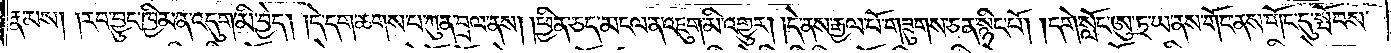རྣམས། །རབ་བྱུང་ཁྱིམ་ན་འདུག་མི་བྱེད། །དེ་དག་ཆགས་པ་ཀུན་བྲལ་ནས། །ཕྱིན་ཅད་མངལ་ན་འཇུག་མི་འགྱུར། །དེ་ནས་རྒྱལ་པོ་གཟུགས་ཅན་སྙིང་པོ། །དགེ་སློང་ཨུ་ཏྲ་ཡ་ནས་གོང་དུ་ནས་གོང་དུ་སྤོབས་
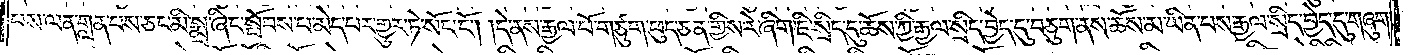པས་ལན་གླན་པས་ཅང་མི་སྨྲ་ཞིང་སྤོབས་པ་མེད་པར་གྱུར་ཏེ་སོང་ངོ༌། །དེ་ནས་རྒྱལ་པོ་གཙུག་ཕུད་ཅན་གྱིས་རེ་ཞིག་ཇི་སྲིད་དུ་ཆོས་ཀྱི་རྒྱལ་སྲིད་བྱེད་དུ་བཅུག་ནས་ཆོས་མ་ཡིན་པས་རྒྱལ་སྲིད་བྱེད་དུ་གཞུག་
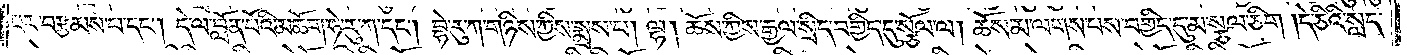པར་བརྩམས་པ་དང༌། དེ་ལ་བློན་པོའི་མཆོག་ཧེ་རུ་ཀ་དང༌། བྷེ་རུ་ཀ་གཉིས་ཀྱིས་སྨྲས་པ། ལྷ། ཆོས་ཀྱིས་རྒྱལ་སྲིད་བགྱིད་དུ་སྩོལ་ལ། ཆོས་མ་ལགས་པས་བགྱིད་དུ་མ་སྩལ་ཅིག །དེ་ཅིའི་སླད་
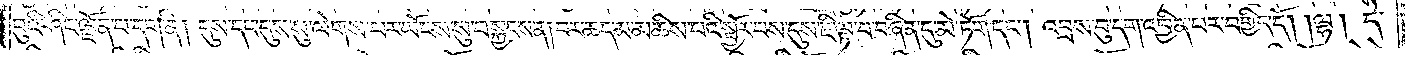བུའི་ཤིང་ལྗོན་པ་དག་ནི། དུས་དང་དུས་སུ་ལེགས་པར་ཡོངས་སུ་བསྐྱངས་ན། བར་ཆད་མ་མཆིས་པའི་སྦྱོར་བས་དུས་ཇི་ལྟ་བ་བཞིན་དུ་མེ་ཏོག་དང༌། འབྲས་བུ་དག་འབྱིན་པར་བགྱིད་དོ། །ལྷ། དེ་
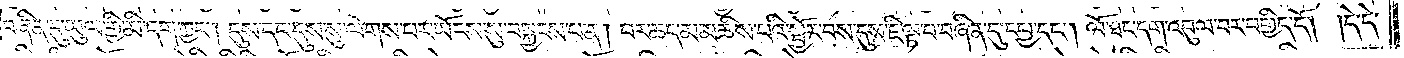བཞིན་དུ་ཡུལ་གྱི་མི་དག་ཀྱང༌། དུས་དང་དུས་སུ་ལེགས་པར་ཡོངས་སུ་བསྐྱངས་པ་ན། བར་ཆད་མ་མཆིས་པའི་སྦྱོར་བས་དུས་ཇི་ལྟ་བ་བཞིན་དུ་དཔྱ་དང༌། ལོ་ཐང་དག་འབུལ་བར་བགྱིད་དོ། །དེ་དེ་
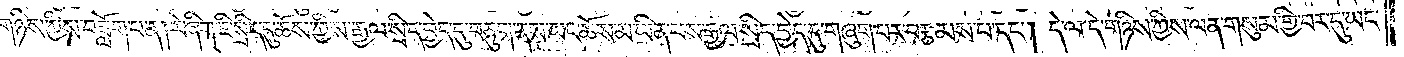གཉིས་ཀྱིས་བཟློག་པ་ན། རེ་ཞིག་ཇི་སྲིད་དུ་ཆོས་ཀྱིས་རྒྱལ་སྲིད་བྱེད་དུ་བཅུག་ནས་ཡང་ཆོས་མ་ཡིན་པས་རྒྱལ་སྲིད་བྱེད་དུ་གཞུག་པར་བརྩམས་པ་དང༌། དེ་ལ་དེ་གཉིས་ཀྱིས་ལན་གསུམ་གྱི་བར་དུ་ཡང་
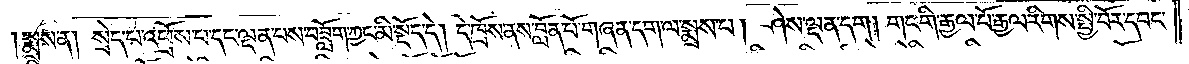།སྨྲས་ན། སྲེད་པ་འཕྲོས་པ་དང་ལྡན་པས་བཟློག་ཀྱང་མི་སྡོད་དེ། དེ་ཁྲོས་ནས་བློན་པོ་གཞན་དག་ལ་སྨྲས་པ། ཤེས་ལྡན་དག །གང་གི་རྒྱལ་པོ་རྒྱལ་རིགས་སྤྱི་བོར་དབང་
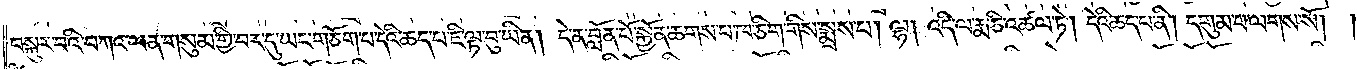བསྐུར་བའི་བཀའ་ལན་གསུམ་གྱི་བར་དུ་ཡང་གཅོག་པ་དེའི་ཆད་པ་ཇི་ལྟ་བུ་ཡིན། དེ་ན་བློན་པོ་སྐྱོན་ཆགས་པ་ཁ་ཅིག་གིས་སྨྲས་པ། ལྷ། འདི་ལ་རྨ་ཅི་འཚལ་ཏེ། དེའི་ཆད་པ་ནི། དགུམ་པ་ལགས་སོ། །
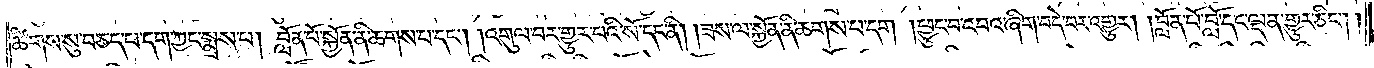ཚིགས་སུ་བཅད་པ་དག་ཀྱང་སྨྲས་པ། བློན་པོ་སྐྱོན་ནི་ཆགས་པ་དང༌། །འགུལ་བར་གྱུར་པའི་སོ་དང་ནི། །ཟས་ལ་སྐྱོན་ནི་ཆགས་པ་དག །ཕྱུང་བ་འབའ་ཞིག་བདེ་བར་འགྱུར། །བློན་པོ་བློ་དང་ལྡན་གྱུར་ཅིང༌། །
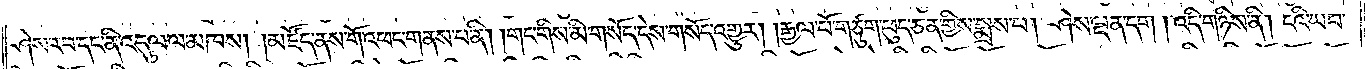ཤེས་རབ་དང་ནི་འདུལ་ལ་མཁས། །མཛོད་ནས་གོ་འཕང་གནས་པ་ནི། །གང་གིས་མི་གསོད་དེས་གསོད་འགྱུར། །རྒྱལ་པོ་གཙུག་ཕུད་ཅན་གྱིས་སྨྲས་པ། ཤེས་ལྡན་དག །འདི་གཉིས་ནི། ངའི་ཡབ་
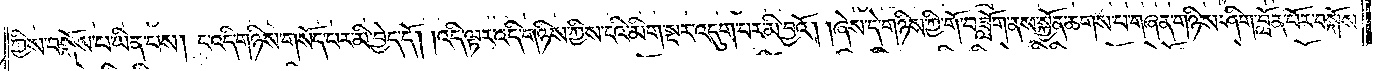ཀྱིས་བསྐོས་པ་ཡིན་པས། ང་འདི་གཉིས་གསོད་པར་མི་བྱེད་དོ། །འདི་ལྟར་འདི་གཉིས་ཀྱིས་ངའི་མིག་སྔར་འདུག་པར་མི་བྱའོ། །ཞེས་དེ་གཉིས་ཀྱི་གོ་བཟློག་ནས་སྐྱོན་ཆགས་པ་གཞན་གཉིས་ཤིག་བློན་པོར་བསྐོས་
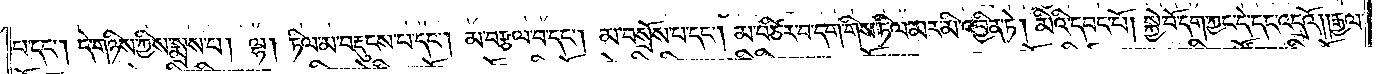པ་དང༌། དེ་གཉིས་ཀྱིས་སྨྲས་པ། ལྷ། ཏིལ་མ་བརྡུངས་པ་དང་མ་བརྩལ་པ་དང༌། མ་བསྲོས་པ་དང༌། མ་བཙིར་བ་དག་གིས་ཏིལ་མར་མི་འབྱིན་ཏེ། མིའི་དབང་པོ། སྐྱེ་བོ་དག་ཀྱང་དེ་དང་འདྲའོ། །རྒྱལ་
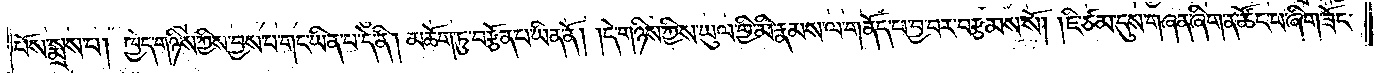པོས་སྨྲས་པ། ཁྱེད་གཉིས་ཀྱིས་བྱས་པ་གང་ཡིན་པ་དེ་ནི། མཆོག་ཏུ་བརྩོན་པ་ཡིན་ནོ། །དེ་གཉིས་ཀྱིས་ཡུལ་གྱི་མི་རྣམས་ལ་གནོད་པ་བྱ་བར་བརྩམས་སོ། །ཇི་ཙམ་དུས་གཞན་ཞིག་ན་ཚོང་པ་ཞིག་ཟོང་
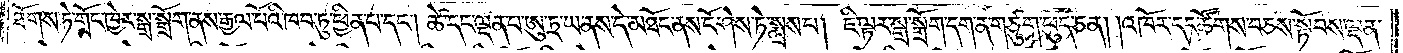ཐོགས་ཏེ་གྲོང་ཁྱེར་སྒྲ་སྒྲོག་ནས་རྒྱལ་པོའི་ཁབ་ཏུ་ཕྱིན་པ་དང༌། ཚེ་དང་ལྡན་པ་ཨུ་ཏྲ་ཡ་ནས་དེ་མཐོང་ནས་ངོ་ཤེས་ཏེ་སྨྲས་པ། ཇི་ལྟར་སྒྲ་སྒྲོག་དག་ན་གཙུག་ཕུད་ཅན། །འཁོར་དང་ཚོགས་བཅས་སྟོབས་ལྡན་
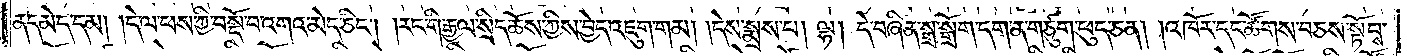ནད་མེད་དམ། །དེ་ལ་ཕས་ཀྱི་བསྔོ་བ་འགའ་མེད་ཅིང༌། །རང་གི་རྒྱལ་སྲིད་ཆོས་ཀྱིས་བྱེད་འཇུག་གམ། །དེས་སྨྲས་པ། ལྷ། དེ་བཞིན་སྒྲ་སྒྲོག་དག་ན་གཙུག་ཕུད་ཅན། །འཁོར་དང་ཚོགས་བཅས་སྟོབས་
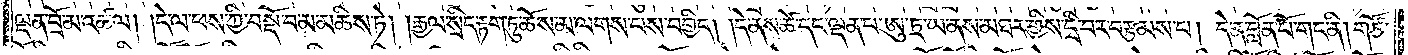ལྡན་བྲོ་མ་འཚལ། །དེ་ལ་ཕས་ཀྱི་བསྡོ་བ་མ་མཆིས་ཏེ། །རྒྱལ་སྲིད་རྟག་ཏུ་ཆོས་མ་ལགས་པས་བགྱིད། །དེ་ནས་ཚེ་དང་ལྡན་པ་ཨུ་ཏྲ་ཡ་ནས་མཐར་གྱིས་དྲི་བར་བརྩམས་པ། དེ་ན་བློན་པོ་གང་ནི། གཙོ་
